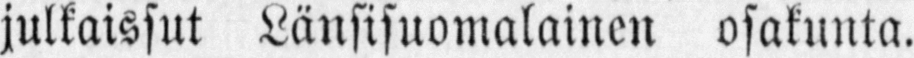julkaissut länsisuomalainen osakunta.
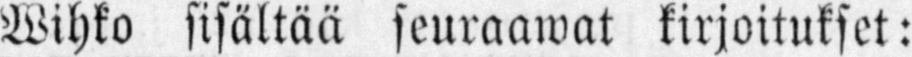Wihko sisältää seuraawat kirjoitukset:
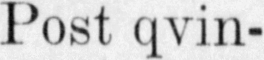MDCXIL-MDCCCXC. Post qvin-
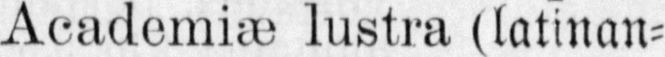qvaginta Academiæ lustra (latinan-
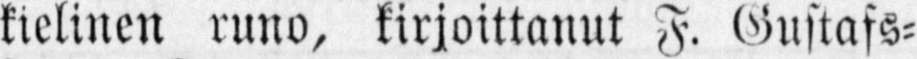kielinen runo, kirjoittanut F. Gustafs-
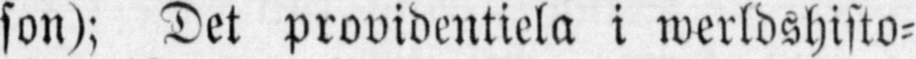son); Det providentiela i werldshisto-
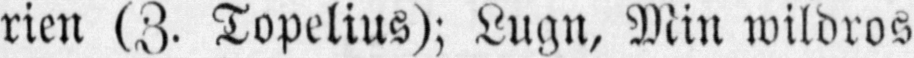rien (Z. Topelius); Lugn, Min wildros
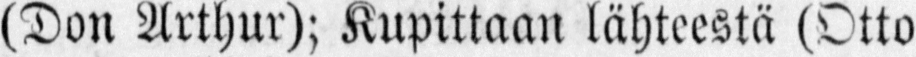(Don Arthur); Kupittaan lähteestä (Otto
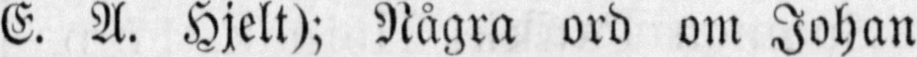E. A. Hjelt); Några ord om Johan
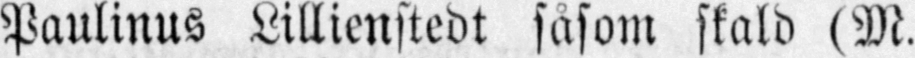Paulinus Lillienstedt såsom skald (M.
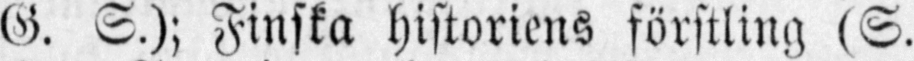G. S.); Finska historiens förstling (S.
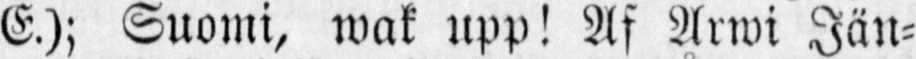E.); Suomi, wak upp! Af Arwi Jän-
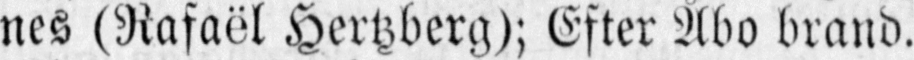nes (Rafaël Hertzberg); Efter Åbo brand.
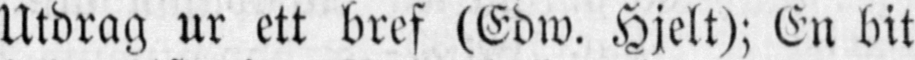Utdrag ur ett bref (Edw. Hjelt); En bit
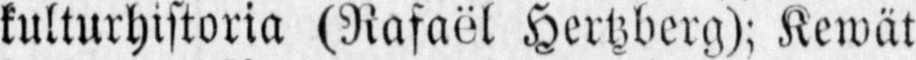kulturhistoria (Rafaël Hertzberg); Kewät
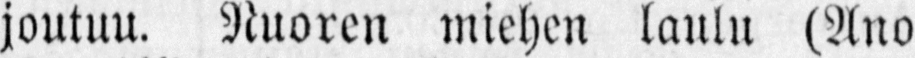joutuu, Nuoren miehen laulu (Ano
